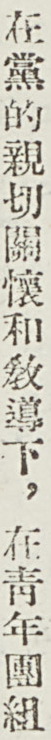在黨的秦切關懷和敎導下，在靑年團組
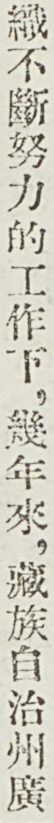織不斷努力的工作下，幾年來，藏族自治州廣
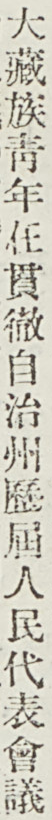大藏族靑年在貫徹自治州歷屆人民代表會議
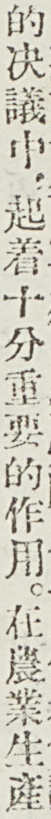的決議中，起着十分重要的作用。在農業生產
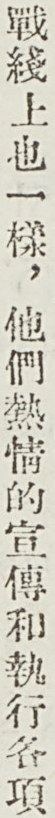戰綫上也一樣，他們熱情的宣傳和執行各項
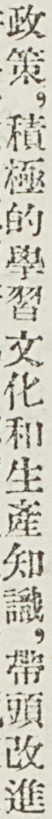政策，積極的學習文化和生產知識，帶頭改進
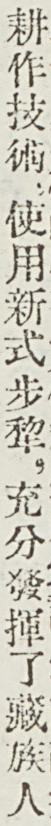耕作技術，使用新式步犂，充分發揮了藏族人
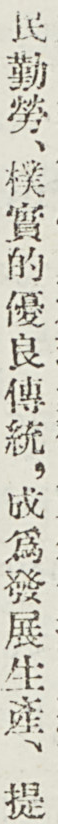民勤勞、樸實的優良傳統，成爲發展生產、提
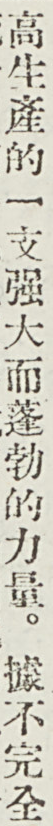高生產的一支強大而蓬勃的力量。據不完全
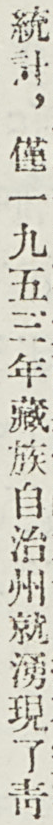統計，僅一九五三年藏族自治州就湧現了靑
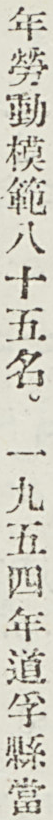年勞動模範八十五名。一九五四年道孚縣當
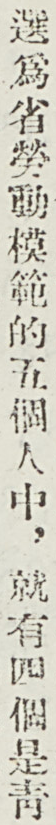選爲省勞動模範的五個人中，就有四個是靑
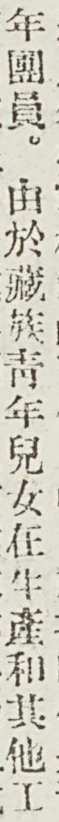年團員。由於藏族靑年兒女在生產和其他工
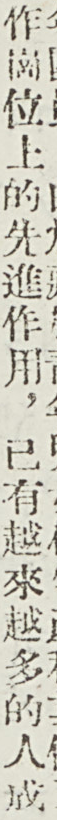作崗位上的先進作用，已有越來越多的人成
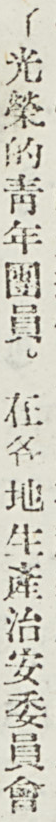了光榮的靑年團員。在各地生產治安委員會
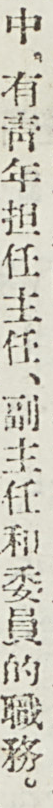中，有靑年担任主任、副主任和委員的職務。
